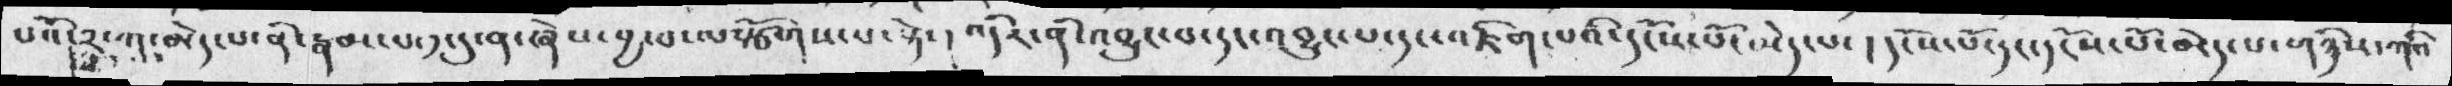པའོ་༢་ག་མེད་པ་ནི་རྣམ་པ་༡་དུ་ན་ཞེས་བྱ་བ་ལསྩོགས་པ་སྟེ་།  འདིར་ནི་འབྱུར་བ་དང་འབྱུང་པ་དང་འཇིག་པའི་དངོས་པོ་མེད་པ་ ། དངོས་པོ་དང་དངོས་པོ་མེད་པ་གཉིས་ཀའི་
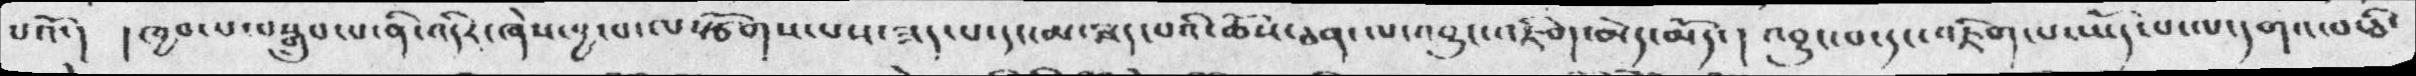པའོ་། །ཁྱབ་པ་བསྒྲུབ་པ་ནི་འདིར་ཞེས་བྱ་བ་ལསྩོགས་པས་ཟད་པ་དང་མ་ཟད་པའི་ཆོས་ཅན་ལ་འབྱུང་འཇིག་མེད་མོད་། འབྱུང་བ་དང་འཇིག་པ་ཡོད་པ་ལ་དགའ་བ་ཅི་
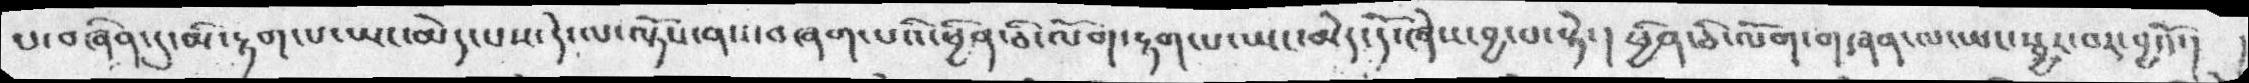པ་བཞིན་དུ་མི་རྟག་པ་ཡང་མེད་པས་དེ་ལ་ལྟོས་ནས་བཞག་པའི་ཕྱིན་ཅི་ལོག་རྟག་པ་ཡང་མེད་དོ་ཞེས་བྱ་བསྟེ་། ཕྱིན་ཅི་ལོག་གཞན་ལ་ཡང་སྦྱར་བར་བྱའོ་། །
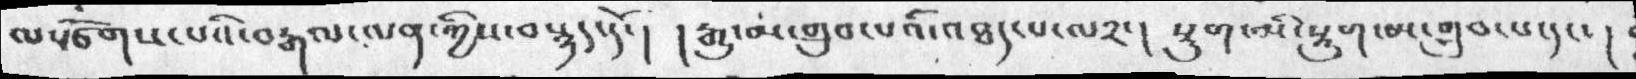ལསྩོགས་པའི་བརྒལ་ལན་ཀྱིས་བསྙད་དོ་།  ། རྒྱུ་མ་གྲུབ་པའི་འཐད་པ་ལ༢་།  སྡུག་མི་སྡུག་མ་གྲུབ་པ་དང་།
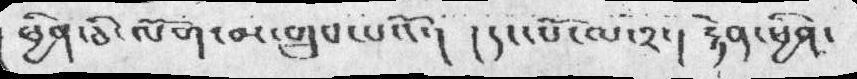ཕྱིན་ཅི་ལོག་མ་གྲུབ་པའོ་།  ། དང་པོ་ལ་༢་།  རྟེན་ཕྱིན་
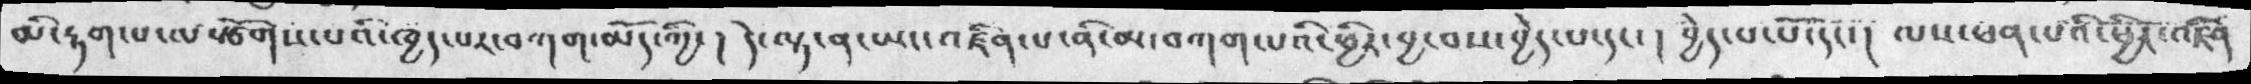མི་རྟག་པ་ལསྩོགས་པའི་ཁྱད་པར་བཀག་མོད་ཀྱི་།  དེ་ལྟ་ན་ཡང་འཛིན་པ་ནི་མ་བཀག་པའི་ཕྱིར་བྱ་བས་བྱེད་པ་དང་།  བྱེད་པ་པོ་དང་།  ལས་ཕན་པའི་ཕྱིར་འཛིན
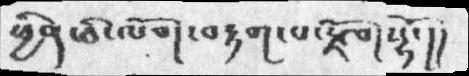ཕྱིན་ཅི་ལོག་བརྟག་པ་རྫོགསྷོ་།།
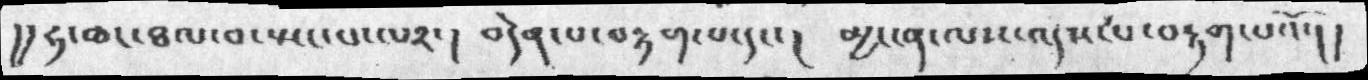།། ཧ་ཆང་ཐལ་བ་སྤང་པ་ལ༢་།  བདེན་པ་བརྟག་པ་དང་།  མྱ་ངན་ལས་འདས་པ་བརྟག་པའོ་།།
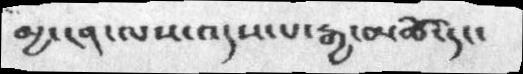མྱ་ངན་ལས་འདས་པ་རྒྱ་མཚོ་དང་
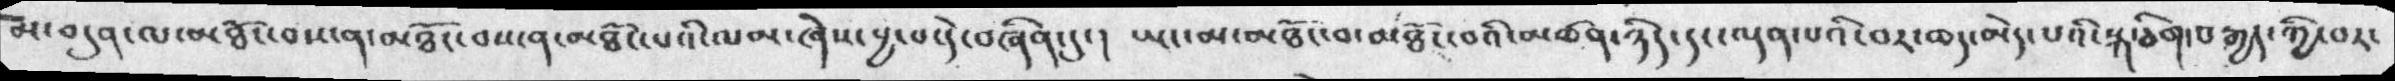མ་བདུན་ལ་མཐོང་བས་ན་མཐོང་བས་ན་མཐོང་པའི་ལམ་ཞེས་བྱ་བ་དེ་བཞིན་དུ་།  ཡང་མ་མཐོང་བ་མཐོང་བའི་མཚན་ཉིད་དང་ལྡན་པའི་བར་ཆད་མེད་པའི་སྐ་ཅིག་བརྒྱད་ཀྱི་བར་
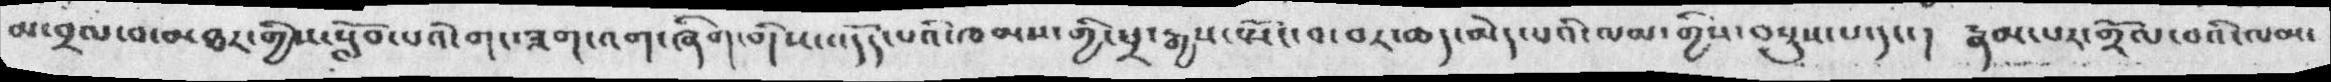མ་བྲལ་བ་མཐར་གྱིས་སློབ་པའི་གང་ཟག་འག་ཞིག་གིས་འདོད་པའི་ཁམས་གྱི་ཕྲ་རྒྱས་སྤོང་བ་བར་ཆད་མེད་པའི་ལམ་གྱིས་བསྡུས་པ་དང་། རྣམ་པར་གྲོལ་བའི་ལམ་
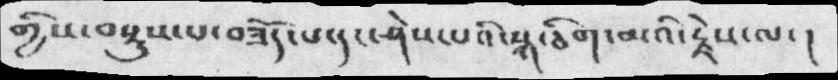གྱིས་བསྡུས་པ་བཟོད་པ་དང་ཤེས་པའི་སྐ་ཅིག་མའི་རྗེས་ལ་།
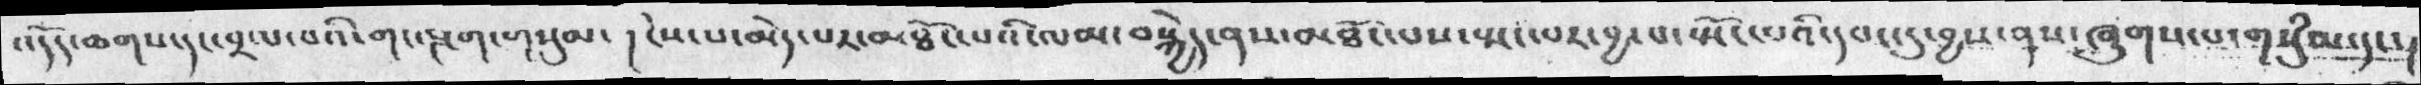འདོད་ཆགས་དང་བྲལ་བའི་གང་ཟག་གསུམ་། ངེས་པ་མེད་པར་མཐོང་པའི་ལམ་བསྐྱེད་ནས་མཐོང་པས་སྤང་པར་བྱ་བ་སྤོང་པའི་དབང་དུ་བྱས་ནས་ཞུགས་པ་གསུཾམ་དང་།
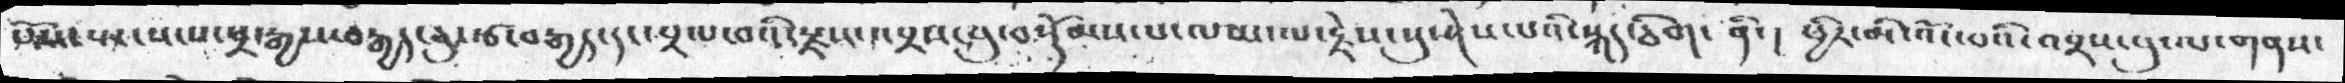པོས་སྤངས་པ་ཕྲ་རྒྱས་བརྒྱད་ཅུ་རྩ་བརྒྱད་དང་བྲལ་བའི་རྫས་འབྲས་བུ་སྡོམས་པ་ལམ་ལ་རྗེས་སུ་ཤེས་པའི་སྐད་ཅིག་ནི་། ཕྱིར་མི་འོང་བའི་འབྲས་བུ་ལ་གནས་
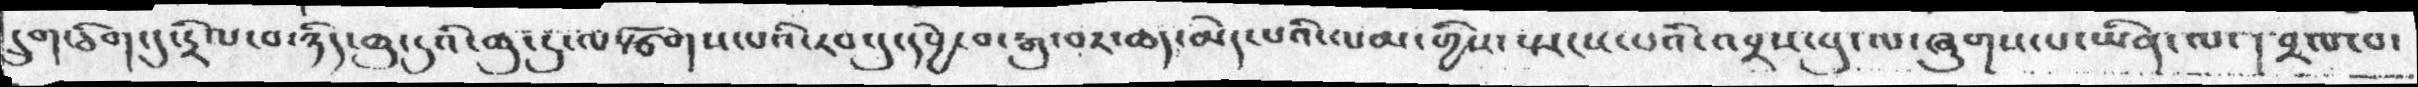དྲུག་ཅིག་དུ་དྲིལ་བ་ཉིད་ཆུ་ངུའི་ཆུ་ངུ་ལསྩོགས་པའི་རབ་དུ་དབྱེ་བ་རྒུ་བར་ཆད་མེད་པའི་ལམ་གྱིས་སྤངས་པའི་འབྲས་བུ་ལ་ཞུགས་པ་ཡིན་ལ་། བྲལ་པ་
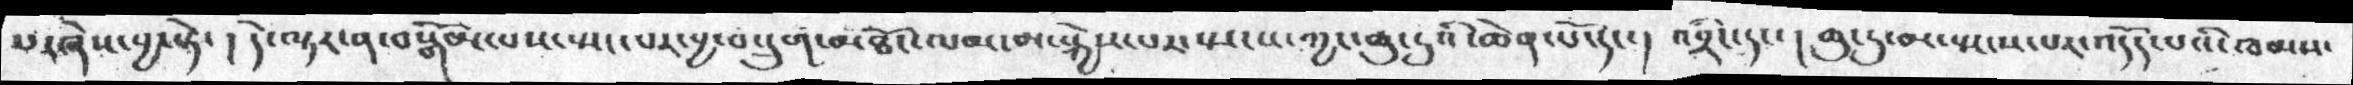པ་ཞེས་བྱ་སྟེ་། དེ་ལྟར་ན་བསྒོམ་པས་སྤང་པར་བྱ་བ་དྲུག་མཐོང་ལམ་མ་སྐྱེས་པར་སྤངས་ཀྱང་ཆུ་ངུའི་ཆེན་པོ་དང་། འབྲིང་དང་། ཆུ་ངུ་མ་སྤངས་པར་འདོད་པའི་ཁམས་
